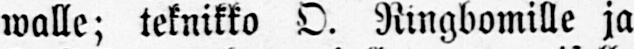walle; teknikko O. Ringbomille ja
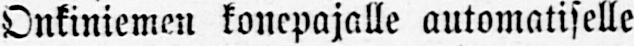Onkiniemen konepajalle automatiselle
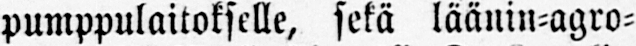pumppulaitokselle, sekä läänin-agro-
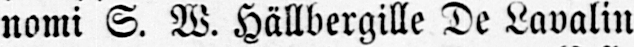nomi S. W. Hällbergille De Lavalin
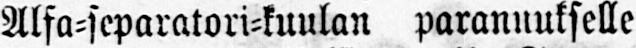Alfa-separatori-kuulan parannukselle
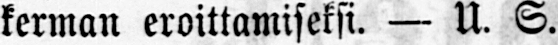kerman eroittamiseksi. — U. S.
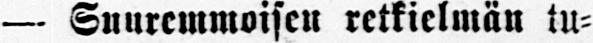— Suuremmoisen retkielmän tu-
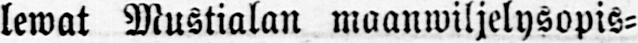lewat Mustialan maanwiljelysopis-
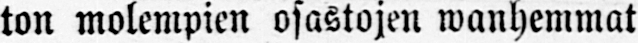ton molempien osastojen wanhemmat
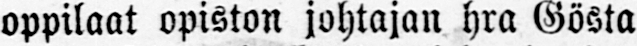oppilaat opiston johtajan hra Gösta
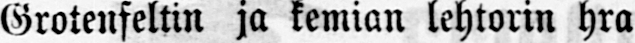Grotenfeltin ja kemian lehtorin hra
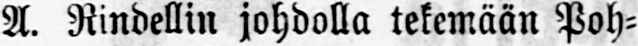A. Rindellin johdolla tekemään Poh-
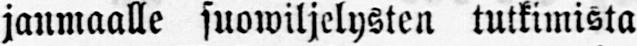janmaalle suowiljelysten tutkimisia
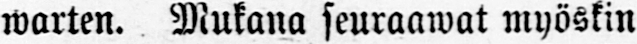warten. Mukana seuraawat myöskin
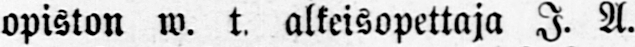opiston w. t. alkeisopettaja I. A.
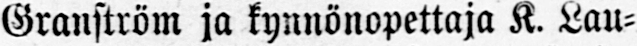Granström ja kynnönopettaja K. Lau-
